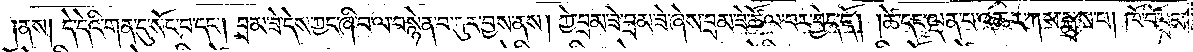ནས། དེ་དེའི་གན་དུ་སོང་བ་དང༌། བྲམ་ཟེ་དེས་ཀྱང་ཞི་བ་ལ་བསྙེན་བཀུར་བྱས་ནས། ཀྱེ་བྲམ་ཟེ་བྲམ་ཟེ་ཞེས་བྲམ་ཟེ་ཚོལ་བར་བྱེད་དོ། །ཚེ་དང་ལྡན་པ་འཆར་ཀས་སྨྲས་པ། ཁོ་བོ་བྲམ་
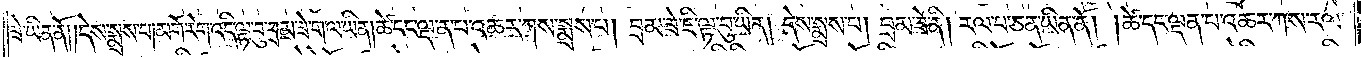ཟེ་ཡིན་ནོ། །དེས་སྨྲས་པ། མགོ་རེག་འདི་ལྟ་བུ་བྲམ་ཟེ་ག་ལ་ཡིན། ཚེ་དང་ལྡན་པ་འཆར་ཀས་སྨྲས་པ། བྲམ་ཟེ་ཇི་ལྟ་བུ་ཡིན། དེས་སྨྲས་པ། བྲམ་ཟེ་ནི། རལ་པ་ཅན་ཡིན་ནོ། །ཚེ་དང་ལྡན་པ་འཆར་ཀས་རལ་
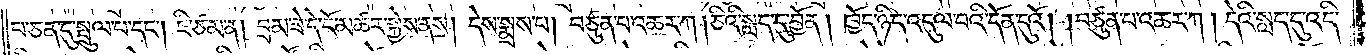པ་ཅན་དུ་སྤྲུལ་པ་དང༌། ཇི་ཙམ་ན། བྲམ་ཟེ་དེ་ངོ་མཚར་སྐྱེས་ནས། དེས་སྨྲས་པ། བཙུན་པ་འཆར་ཀ །ཅིའི་སླད་དུ་བྱོན། ཁྱོད་ཉིད་འདུལ་བའི་དོན་དུའོ། །བཙུན་པ་འཆར་ཀ །དེའི་སླད་དུ་འདི་
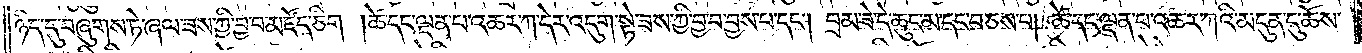ཉིད་དུ་བཞུགས་ཏེ་ཞལ་ཟས་ཀྱི་བྱ་བ་མཛོད་ཅིག །ཚེ་དང་ལྡན་པ་འཆར་ཀ་དེར་འདུག་སྟེ་ཟས་ཀྱི་བྱ་བ་བྱས་པ་དང༌། བྲམ་ཟེ་དེ་ཆུང་མ་དང་བཅས་པ། ཚེ་དང་ལྡན་པ་འཆར་ཀའི་མདུན་དུ་ཆོས་
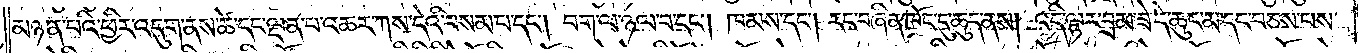མཉན་པའི་ཕྱིར་འདུག་ནས་ཚེ་དང་ལྡན་པ་འཆར་ཀས་དེའི་བསམ་པ་དང༌། བག་ལ་ཉལ་བ་དང༌། ཁམས་དང༌། རང་བཞིན་ཁོང་དུ་ཆུད་ནས། འདི་ལྟར་བྲམ་ཟེ་དེ་ཆུང་མ་དང་བཅས་པས་
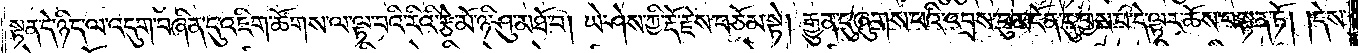སྟན་དེ་ཉིད་ལ་འདུག་བཞིན་དུ་འཇིག་ཚོགས་ལ་ལྟ་བའི་རིའི་རྩེ་མོ་ཉི་ཤུ་མཐོ་བ། ཡེ་ཤེས་ཀྱི་རྡོ་རྗེས་བཅོམ་སྟེ། རྒྱུན་དུ་ཞུགས་པའི་འབྲས་བུ་མངོན་དུ་བྱས་པ་དེ་ལྟར་ཆོས་བསྟན་ཏོ། །དེས་
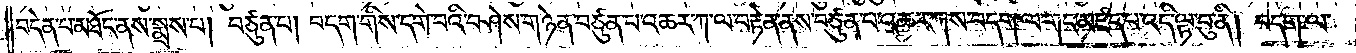བདེན་པ་མཐོང་ནས་སྨྲས་པ། བཙུན་པ། བདག་གིས་དགེ་བའི་བཤེས་གཉེན་བཙུན་པ་འཆར་ཀ་ལ་བརྟེན་ནས་བཙུན་པ་འཆར་ཀས་བདག་ལ་གང་མཛད་པ་འདི་ལྟ་བུ་ནི། བདག་ལ་
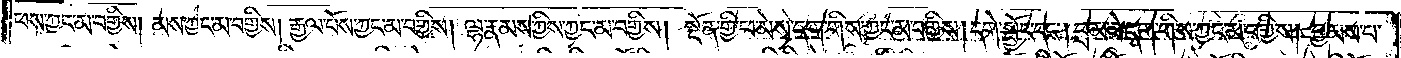ཕས་ཀྱང་མ་བགྱིས། མས་ཀྱང་མ་བགྱིས། རྒྱལ་པོས་ཀྱང་མ་བགྱིས། ལྷ་རྣམས་ཀྱིས་ཀྱང་མ་བགྱིས། སྔོན་གྱི་ཕ་མེས་དག་གིས་ཀྱང་མ་བགྱིས། དགེ་སྦྱོང་དང༌། བྲམ་ཟེ་དག་གིས་ཀྱང་མ་བགྱིས། བྱམས་པ་
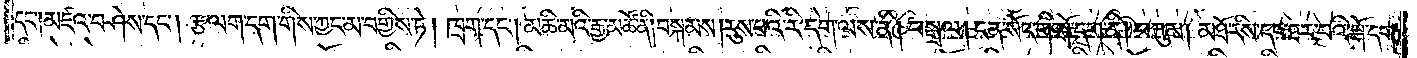དང༌། མཛའ་བཤེས་དང༌། རྩ་ལག་དག་གིས་ཀྱང་མ་བགྱིས་ཏེ། ཁྲག་དང༌། མཆི་མའི་རྒྱ་མཚོ་ནི། བསྐམས། རུས་པའི་རི་དག་ལས་ནི། བསྒྲལ། ངན་སོང་གི་སྒོ་དག་ནི། བཀུམ། མཐོ་རིས་དང་ཐར་བའི་སྒོ་དག་
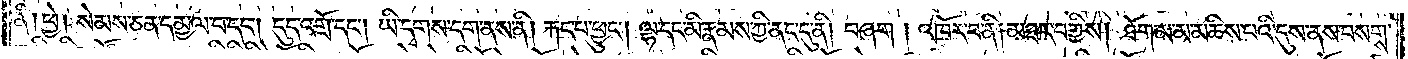ནི། ཕྱེ། སེམས་ཅན་དམྱལ་བ་དང༌། དུད་འགྲོ་དང༌། ཡི་དྭགས་དག་ནས་ནི། རྐང་པ་ཕྱུང༌། ལྷ་དང་མི་རྣམས་ཀྱི་ནང་དུ་ནི། བཞག །འཁོར་བ་ནི། མཐར་བགྱིས། ཐོག་མ་མ་མཆིས་པའི་དུས་ནས་བསགས་
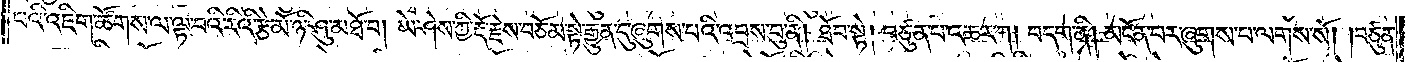པའི་འཇིག་ཚོགས་ལ་ལྟ་བའི་རིའི་རྩེ་མོ་ཉི་ཤུ་མཐོ་བ། ཡེ་ཤེས་ཀྱི་རྡོ་རྗེས་བཅོམ་སྟེ་རྒྱུན་དུ་ཞུགས་པའི་འབྲས་བུ་ནི། ཐོབ་སྟེ། བཙུན་པ་འཆར་ཀ། བདག་ནི། མངོན་པར་ཞུགས་པ་ལགས་སོ། །བཙུན་
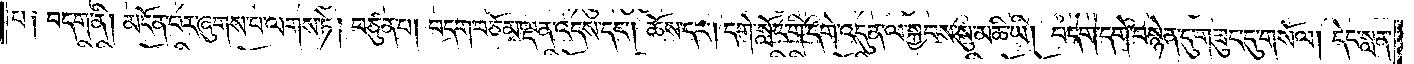པ༑ བདག་ནི། མངོན་པར་ཞུགས་པ་ལགས་ཏེ། བཙུན་པ། བདག་བཅོམ་ལྡན་འདས་དང༌། ཆོས་དང༌། དགེ་སློང་གི་དགེ་འདུན་ལ་སྐྱབས་སུ་མཆི་ཡི། བདག་དགེ་བསྙེན་དུ་གཟུང་དུ་གསོལ། དེང་སླན་
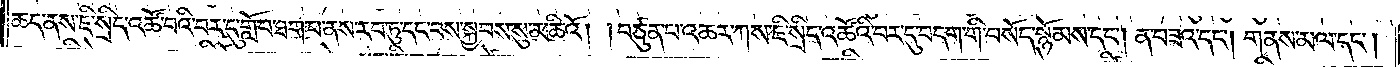ཆད་ནས་ཇི་སྲིད་འཚོ་བའི་བར་དུ་གློ་བ་ཐག་པ་ནས་རབ་ཏུ་དང་བས་སྐྱབས་སུ་མཆིའོ། །བཙུན་པ་འཆར་ཀས་ཇི་སྲིད་འཚོའི་བར་དུ་བདག་གི་བསོད་སྙོམས་དང༌། ན་བཟའ་དང༌། གནས་མལ་དང༌།
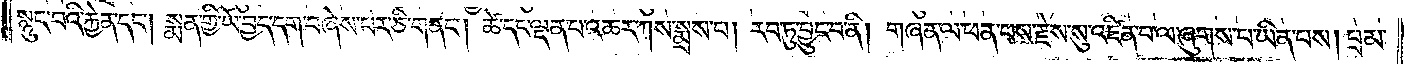སྙུང་བའི་རྐྱེན་དང༌། སྨན་གྱི་ཡོ་བྱད་དག་བཞེས་པར་ཅི་གནང༌། ཚེ་དང་ལྡན་པ་འཆར་ཀས་སྨྲས་པ། རབ་ཏུ་བྱུང་བ་ནི། གཞན་ལ་ཕན་པས་རྗེས་སུ་འཛིན་པ་ལ་ཞུགས་པ་ཡིན་པས། བྲམ་
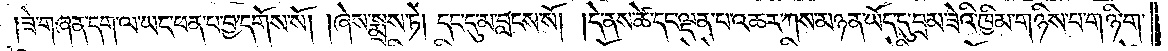ཟེ་གཞན་དག་ལ་ཡང་ཕན་པ་བྱ་དགོས་སོ། །ཞེས་སྨྲས་ཏེ། དང་དུ་མ་བླངས་སོ། །དེ་ནས་ཚེ་དང་ལྡན་པ་འཆར་ཀས་མཉན་ཡོད་དུ་བྲམ་ཟེའི་ཁྱིམ་གཉིས་པ་གཉི་ག་
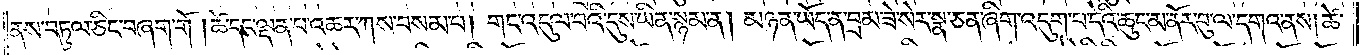ནས་བཏུལ་ཅིང་བཞག་གོ །ཚེ་དང་ལྡན་པ་འཆར་ཀས་བསམ་པ། གང་འདུལ་བའི་དུས་ཡིན་སྙམ་ན། མཉན་ཡོད་ན་བྲམ་ཟེ་སེར་སྣ་ཅན་ཞིག་འདུག་པ་དེའི་ཆུང་མ་ནོར་བུ་ལ་དགའ་ནས། ཚེ་
